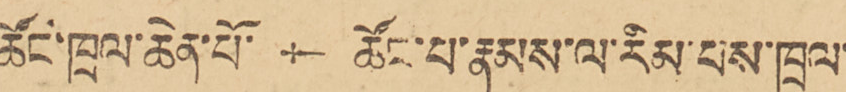ཚོང་ཁྲལ་ཆེན་པོ་ † ཚོང་པ་རྣམས་ལ་རིམ་པས་ཁྲལ་
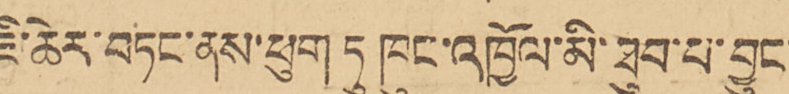ཇི་ཆེར་བཏང་ནས་ཕུག ཏུ་ཁུང་འཁྱོལ་མི་ཐུབ་པ་བྱུང་
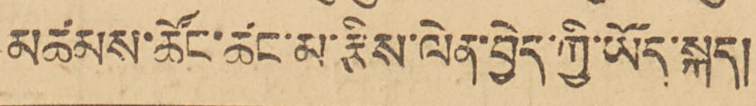མཚམས་ཚོང་ཚང་མ་རྩིས་ལེན་བྱེད་ཀྱི་ཡོད་སྐད།
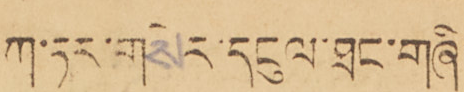ཀ་ཏར་གསེར་དངུལ་ཐང་གཞི་
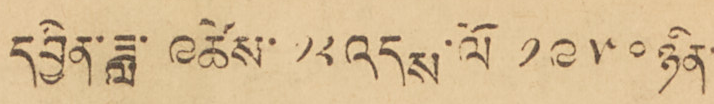དབྱིན་ཟླ་ ༩ ཚེས་ ༡༢ འདས་ལོ ༡༩༥༠ ཉིན་
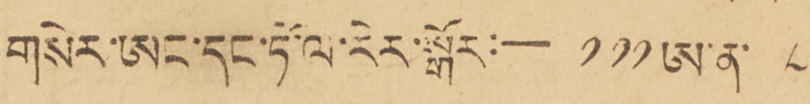གསེར་ཨང་དང་ཏོ་ལ་རེར་སྒོར:— ༡༡༡ ཨ་ན་ ༨
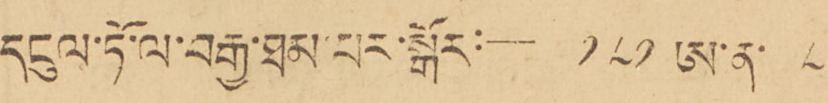དངུལ་ཏོ་ལ་བརྒྱ་ཐམ་པར་སྒོར:— ༡༨༡ ཨ་ན་ ༨
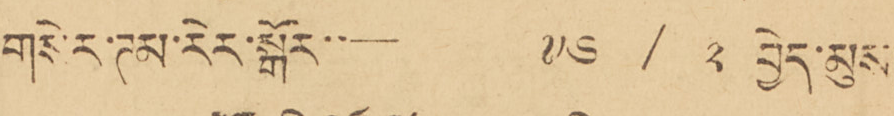གསེར་ཊམ་རེར་སྒོར:— ༧༦ /༢ བྱེད་མུས།
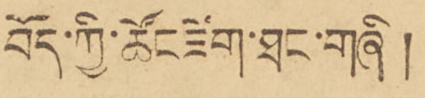བོད་ཀྱི་ཚོང་ཟིག་ཐང་གཞི །
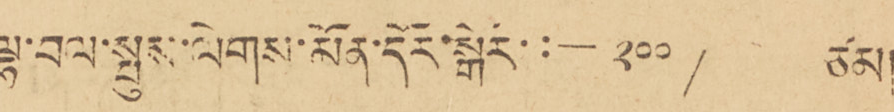ལྷ་བལ་སྤུས་ལེགས་མོན་དོར་སྒེར་:— ༢༠༠/ ཙམ།
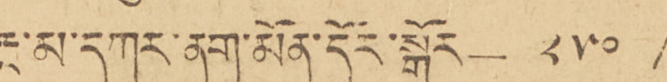རྔ་མ་དཀར་ནག་མོན་དོར་སྒོར ༢༥༠ /
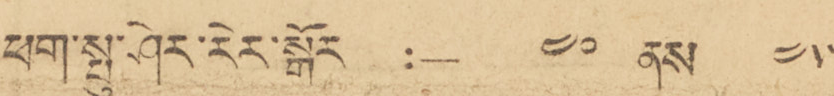ཕག་སྤུ་ཤེར་རེར་སྒོར:— ༤༠ ནས་ ༤༥
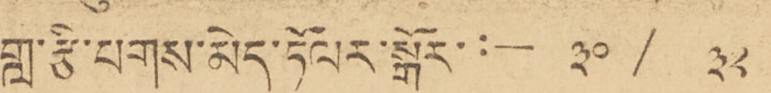གླ་རྩི་པགས་མེད་ཏོལར་སྒོར་:— ༣༠ / ༣༢
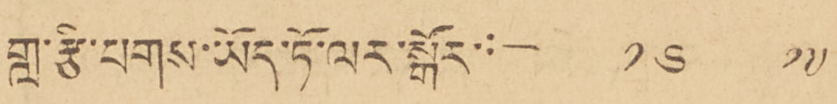གླ་རྩི་པགས་མེད་ཏོ་ལར་སྒོར་:— ༡༦ ༡༧
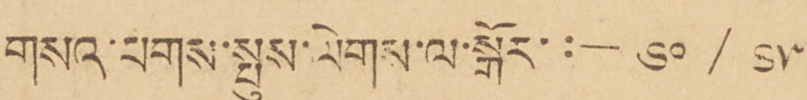གསའ་པགས་སྤུས་ལེགས་ལ་སྒོར་:— ༦༠ / ༦༥
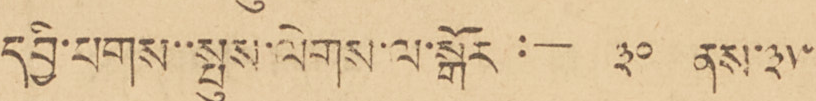དབྱེ་པགས་སྤུས་ལེགས་ལ་སྒོར་:— ༣༠ ནས་ ༣༥
